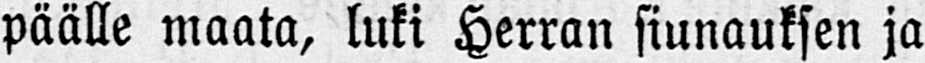päälle maata, luki Herran siunauksen ja
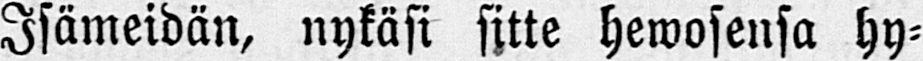Isämeidän, nykäsi sitte hewosensa hy-
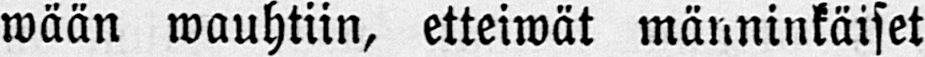wään wauhtiin, etteiweät männinkäiset
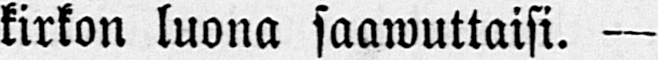kirkon luona saawuttaisi. —
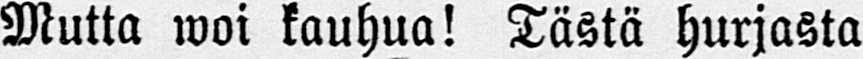Mutta woi kauhua! Tästä hurjasta
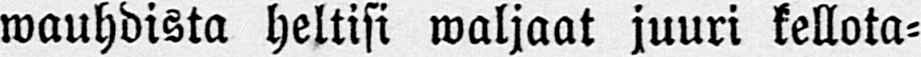wauhdista heltisi waljaat juuri kellota-
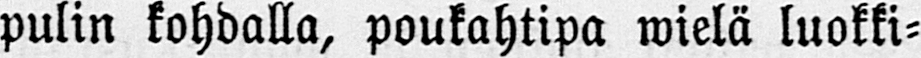pulin kohdalla, poukahtipa wielä luokki-
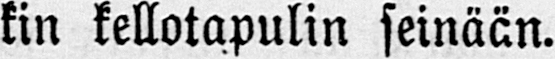kin kellotapulin seinään.
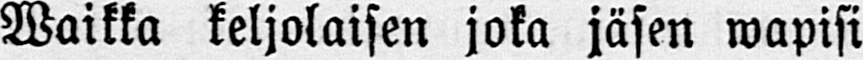Waikka keljolaisen joka jäsen wapisi
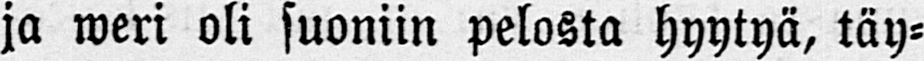ja weri oli suoniin pelosta hyytyä, täy-
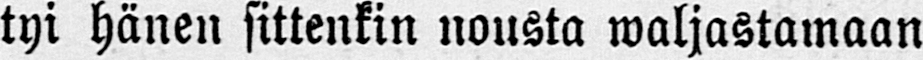tyi hänen sittenkin nousta waljastamaan
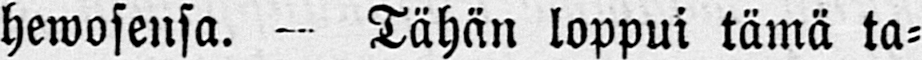hewosensa. - Tähän loppui tämä ta-
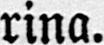rina.
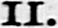II.
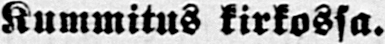Kummitus kirkossa.
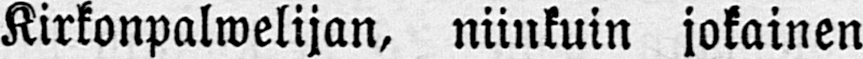Kirkonpalwelijan, niinkuin jokainen
